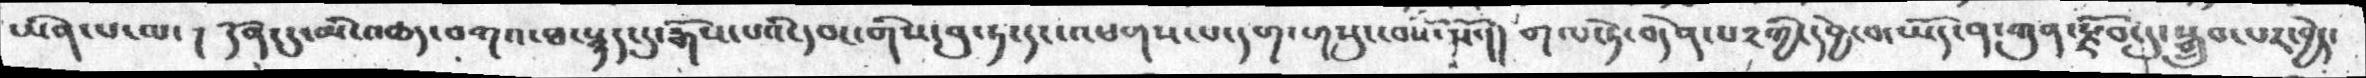ཡིན་པ་ལ་། དོན་དུ་མི་འཆད་འགའ་ཐ་སྙད་དུ་རྒོས་པའི་དབང་གིས་བུ་ཏ་དང་འཕགས་པ་དག་གསུང་བས་སོ་།། གལ་ཏེ་བདེན་པ༢ཀྱི་དབྱེ་བ་ཡོད་ན་ཀུན་རྫོབ་དུ་སྒྲུབ་པར་བྱེད་
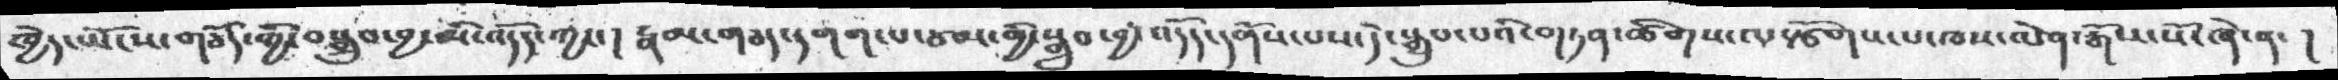ཁྱེད་ཡོངས་གཅོད་ཀྱི་བསྒྲུབ་བྱ་མི་འདོད་ཀྱང་། རྣམ་གཅད་དགག་པ་ཙམ་གྱི་སྒྲུབ་བྱ་འདོད་དགོས་པས་དེ་སྒྲུབ་པའི་གཏན་ཚིགས་ལ་རྩོགས་པ་ཁས་ལེན་རྒོས་སོ་ཞེ་ན་།
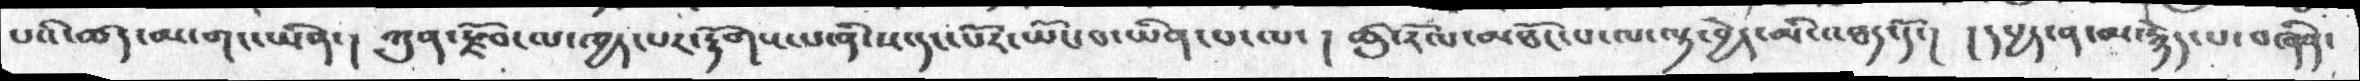པའི་ཚད་མ་གང་ཡིན་།  ཀུན་རྫོབ་ལ་ཁྱད་པར་རྟོགས་པ་ནི་ས་དང་པོར་ཡོང་བ་ཡིན་པ་ལ་། ཚུ་རོལ་མཐོང་པ་ལ་ལྟ་བྱེད་མི་འཐད་དོ་།  །དཔྱད་ན་མ་རྙེད་པ་བཞིན་
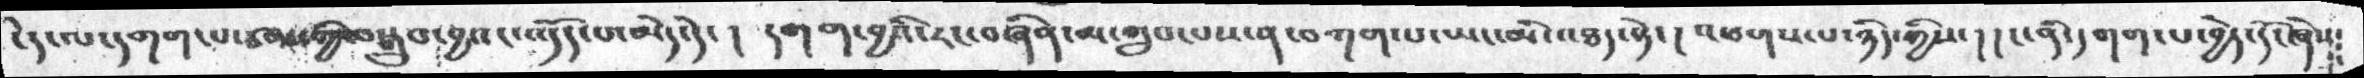ངེད་ལ་དགག་པ་ཙམ་གྱི་བསྒྲུབ་བྱའང་འདོད་པ་མེད་དེ་།  དགག་བྱའི་རང་བཞིན་མ་གྲུབ་པས་ན་བཀག་པ་ཡང་མི་འཐད་སྟེ་། འཕགས་པ་ཉིད་ཀྱིས་། །ང་ནི་དགག་པ་བྱེད་དོ་ཞེས་
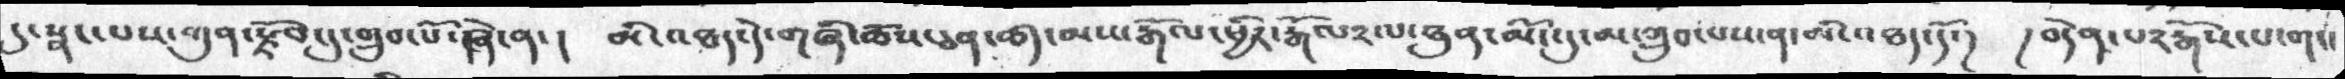དུ་སྣང་པས་ཀུན་རྫོབ་དུ་གྲུབ་པོ་ཞེ་ན་།  མི་འཐད་དེ་གཞི་ཆོས་ཅན་ཚད་མས་རྒོལ་ཕྱིར་རྒོལ༢ལ་ཐུན་མོང་དུ་མ་གྲུབ་པས་ན་མི་འཐད་དོ་།  །བདེན་པ་རྒོས་པ་གང་
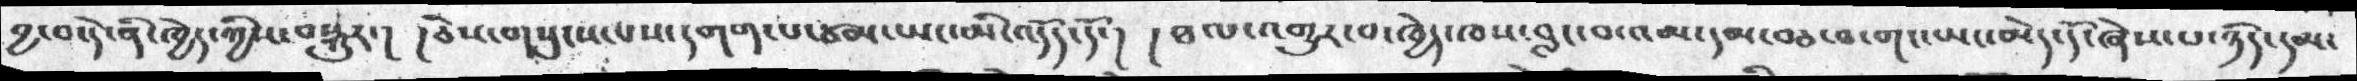བྱ་བ་དེ་ནི་ཁྱེད་ཀྱིས་བསྐུར་། །ཅེས་གསུངས་པས་དགག་པ་ཙམ་ཡང་མི་འདོད་དོ་། །ཐལ་འགྱུར་བ་ཁྱེད་ཁས་བླང་བ་འམ་དམ་བཅ་བ་གང་ཡང་མེད་དོ་ཞེས་པ་ཉིད་དམ་
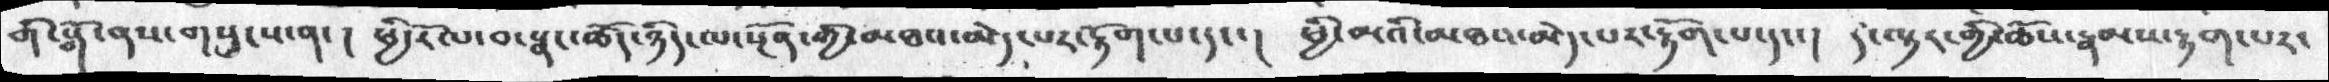གོ་སྒོ་ནས་གསུངས་ན་། ཕྱི་རོལ་བ་སྣང་ཚོད་ཉིད་ལ་སྔོན་གྱི་མཐའ་མེད་པར་རྟོག་པ་དང་། ཕྱི་མའི་མཐའ་མེད་པར་རྟོག་པ་དང་།  དེ་ལྟར་གྱི་ཆོས་རྣམས་རྟག་པར་
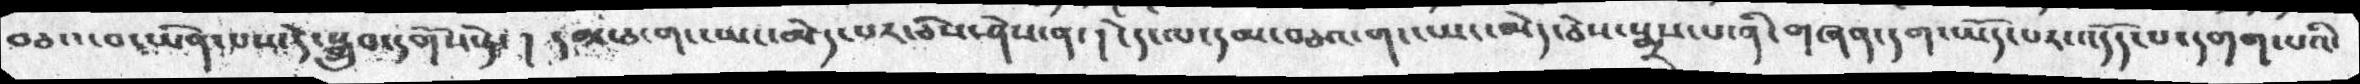བཅའ་བ་ཡིན་པས་དེ་སྒྲུབ་དགོས་ཏེ་། དམ་བཅའ་གང་ཡང་མེད་པར་ཅེས་ཤེས་ན་། ངེད་ལ་དམ་བཅའ་གང་ཡང་མེད་ཅེས་སྨྲས་པ་ནི་གཞན་དག་ཡོད་པར་འདོད་པ་དགག་པའི་
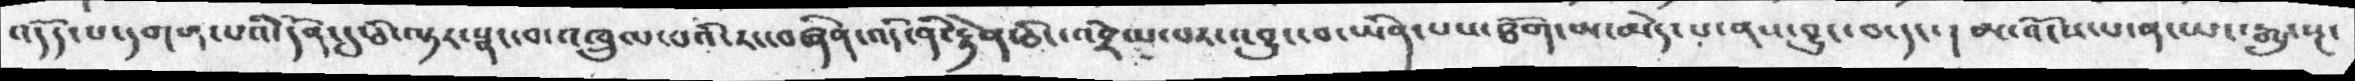འདོད་པ་དགག་པའི་དོན་དུ་ཅི་ལྟར་སྣང་བ་འཁྲུལ་པའི་རང་བཞིན་འདི་ནི་རྟེན་ཅིང་འབྲེལ་བར་འབྱུང་བ་ཡིན་པས་ཐོག་མ་མེད་པ་ནས་བྱུང་བ་དང་། མ་འོངས་པ་ན་ཡང་རྒྱུ་སྔ་
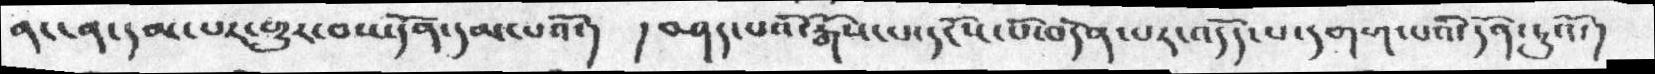ནང་ན་དམ་པར་གྱུར་བས་དོན་དམ་པའོ་།  ། བཤད་པའི་རྒོས་པ་དངོས་པོ་བདེན་པར་འདོད་པ་དགག་པའི་དོན་ཏུའོ་།
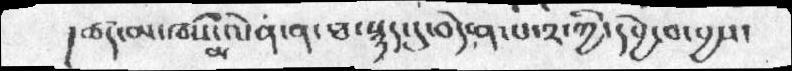།  ཚད་མ་ཁས་མི་ལེན་ན་ཐ་སྙད་དུ་བདེན་པ་༢་ཀྱི་དབྱེ་བ་བྱས་
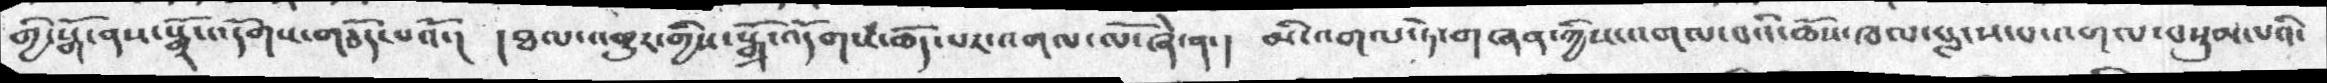གྱི་སྒོ་ནས་སྒྲོ་འདོགས་གཅོད་པའོ་།  །ཐལ་འགྱུར་གྱིས་སྒྲོ་འདོགས་ཆོད་པར་འགལ་ལོ་ཞེ་ན་།  མི་འགལ་ཏེ་གཞན་ཀྱིས་འགལ་བའི་ཆོས་ཁལ་བླངས་པ་འགལ་བསུམ་པའི་
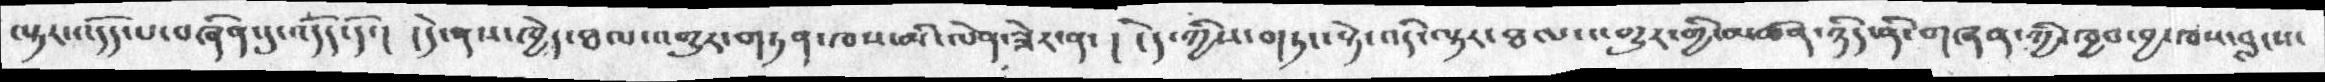ལྟར་འདོད་པ་བཞིན་དུ་འདོད་དོ་།  །དེ་ནས་ཁྱེད་ཐལ་འགྱུར་གཏན་ཁས་མི་ལེན་ཟེར་ན་ ། །དེ་ཀྱིས་གཏང་སྟེ་འདི་ལྟར་ཐལ་འགྱུར་གྱི་མཚན་ཉིད་ནི་གཞན་ཀྱི་ཁྱབ་བྱ་ཁས་བླངས་
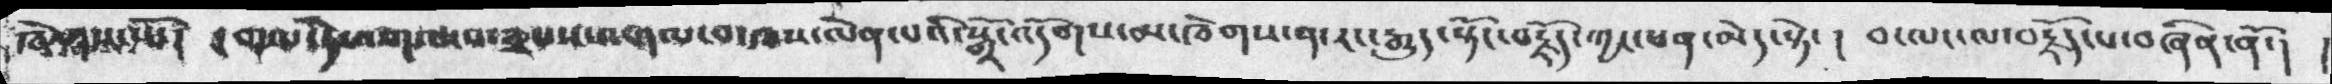ཞེས་གསུངསོ་།  །གལ་ཏེ་འགལ་ན་སྒྲ་དང་འགལ་བ་ཁས་ལེན་པའི་སྒྲོ་འདོགས་མ་ཁེགས་ན་རང་རྒྱུད་སྟོང་བརྗོད་ཀྱང་ཕན་མེད་སྟེ་།    བ་ལང་ལ་བརྗོད་པ་བཞིན་ནོ་།  །
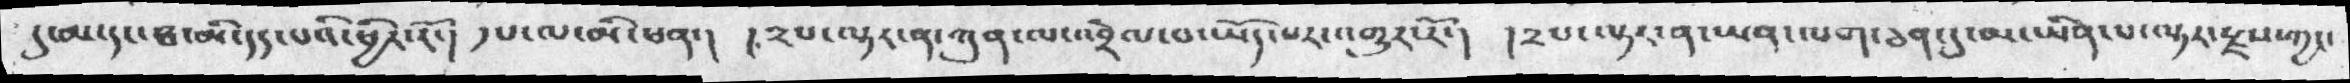དུ་མ་དང་ཐ་མི་དད་པའི་ཕྱིར་རོ་། དཔ་ལ་ནི་ཕན་། །༢པ་ལྟར་ན་ཀུན་ལ་འབྲེལ་བ་ཡོད་པར་འགྱུར་རོ་། །༢པ་ལྟར་ན་ཡན་ལག་ཅན་དུ་མ་ཡིན་པ་ལྟར་རྫས་ཀྱང་
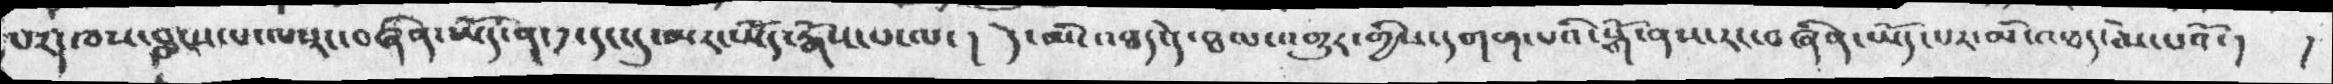པར་ཁས་བླངས་པ་ལ་རང་བཞིན་ཡོད་ན་༡་དང་དུ་མ་རང་ཡོད་རྒོས་པ་ལ་།   དེ་མི་འཐད་དེ་ཐལ་འགྱུར་གྱིས་དགག་པའི་སྒོ་ནས་རང་བཞིན་ཡོད་པར་མི་འཐད་ཅེས་པའོ་།
